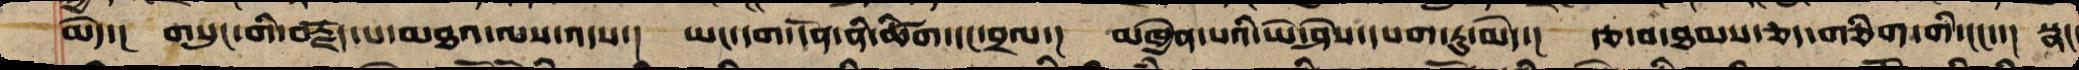མེད་། གསུང་གི་བརྗོད་པ་མཐའ་ལས་འདས་། ཡང་དག་དོན་ནི་ཚིག་དང་བྲལ་། མཁྱེན་པའི་ཡེ་ཤེས་དཔག་ཏུ་མེད་། རྩ་བ་ཐམས་ཅད་གཅིག་གི་ངང་་། སྣང
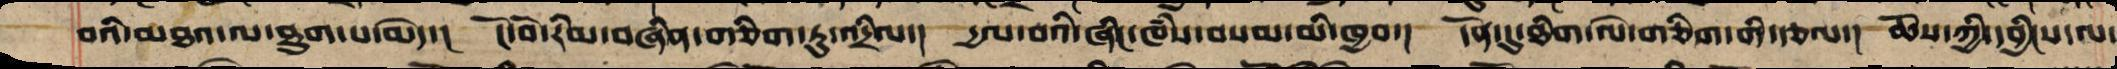བའི་མཐའ་ལ་ཐུག་པ་མེད་། ངོ་བོ་རིམ་བཞིན་གཅིག་ཏུ་འདྲིལ་། རྒྱལ་བའི་ཞིང་ཁཾས་བསམ་མི་ཁྱབ་། དོན་དུ་ཐིག་ལེ་གཅིག་གི་རྩལ་། ཆོས་ཀྱི་དབྱིངས་ལ་
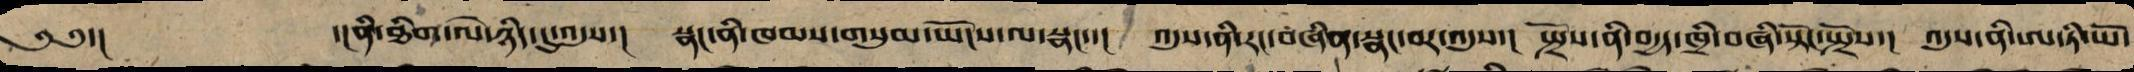༄༅་། ་།ནི་ཐིག་ལེ་ཉིད་དུ་འདུས་། སྣང་ནི་ཁམས་གསུམ་ཡོངས་ལ་སྣང་་། འདུས་ནི་རང་བཞིན་སྣང་བར་འདུས་། སྤྲོས་ནི་བདྱད་ཁྲི་བཞི་སྟོང་སྤྲོས་། འདུས་ནི་ཨ་ཏི་ཡོ་
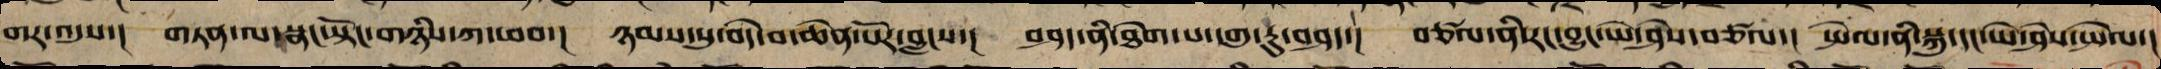གར་འདུས་། གཏན་ལ་སྣང་སྟོང་གཉིས་ཀ་ཕབ་། ཉམས་སུ་བདེ་བ་ཆེན་པོར་བླངས་།། བཤད་ནི་ཐེག་པ་དགུ་རུ་བཤད་། བཙལ་ནི་རང་བྱུང་ཡེ་ཤེས་བཙལ་། སྤེལ་ནི་སྐུ་དང་ཡེ་ཤེས་སྤེལ་།
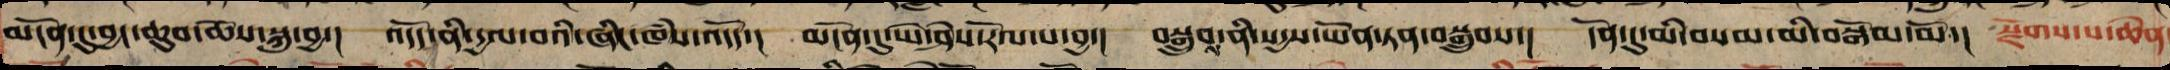མངོན་དུ་བྱང་ཆུབ་ཆོས་སྐུར་བྱ་། འདོད་ནི་དྱལ་བའི་ཞིང་ཁཾས་འདོད་། མངོན་དུ་ཡེ་ཤེས་རོལ་པ་བྱ་། བསྒྲུབ་ནི་སདྱས་ཡོན་ཏན་བསྒྲུབས་། དོན་དུ་མི་བསམ་མི་བསྒོམ་མོ་། སྫོགས་པ་ཆེན
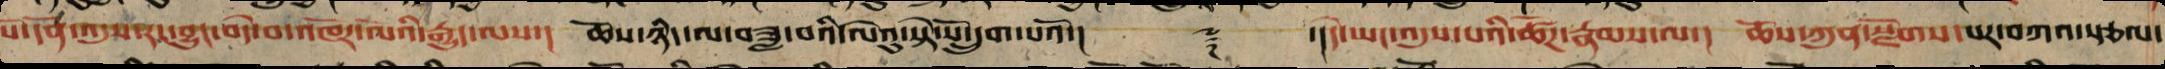པོ་དོན་འདུས་རང་བྱུང་བདེ་བའི་འཁོར་ལོའི་རྒྱུད་ལས་། ཆོས་ཉིད་ལ་བཟླ་བའི་ལེའུ་སྟེ་སོ་དྲུག་པའོ་།། ༈ ་།།དེ་ཡང་འདུས་པའི་ཚོཌ་རྣམས་ལ་། ཆོས་ཀུན་སྫོགས་པར་བཀའ་སྩལ་
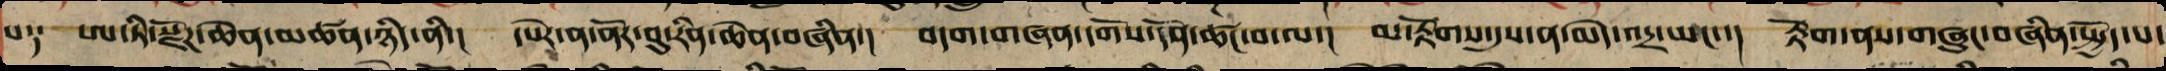པ༑ ཨ་ཏི་སྫོཌ་ཆེན་མཚན་ཉིད་ནི། དཔེར་ན་ནོར་བུ་རིན་ཆེན་བཞིན་། བདག་གཞན་དགོས་འདོད་ཚང་བ་ལ་། མ་རྟོགས་དུས་ན་མེད་འདྲ་ཡང་་། རྟོག་ནས་གཞུང་བཞིན་སྤྱོད་པ་
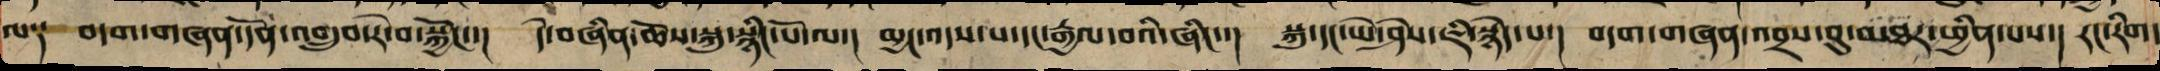ལས༑ བདག་གཞན་དོན་འགྲུབ་རེ་བ་སྐྱོང་་། དེ་བཞིན་ཆོས་སྐུ་སྙིང་པོ་ལ་། མྱང་འདས་ས་དང་རྒྱལ་བའི་ཞིང་་། སྐུ་དང་ཡེ་ཤེས་ཇི་སྙེད་པ་། བདག་གཞན་འབྲས་བུ་མཐར་ཕྱིན་པས་། རང་རིག་
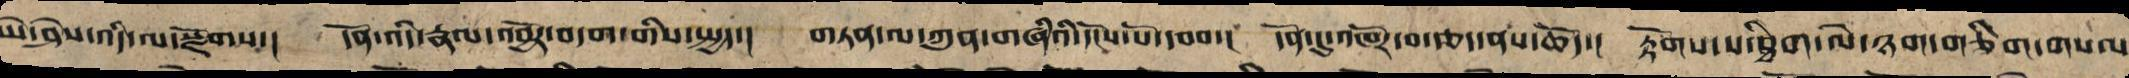ཡེ་ཤེས་འདི་ལ་སྫོགས་། དོན་འདི་རྣལ་འབྱོར་བདག་གིས་སྤྱད་། གཏན་ལ་ཀུན་གཞིའི་དངོས་པོ་དབབ་། དོན་དུ་འཁོར་བ་རྩད་ནས་ཆོད་། རྟོགས་པ་ཐིག་ལེ་ཉག་གཅིག་གསལ
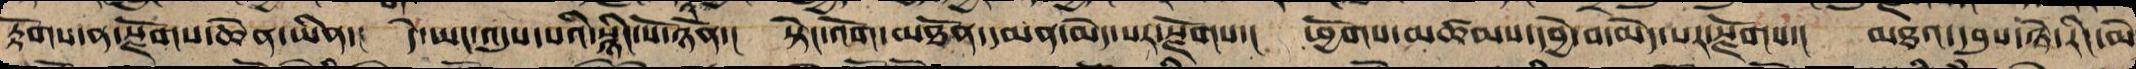རྟོགས་ན་སྫོགས་ཆེན་ཡིན་། དེ་ཡང་འདུས་པའི་སྙིང་པོ་ཉོན་། སྟེང་འོག་མཐོ་དམན་མེད་པར་སྫོགས་། ཕྱོགས་མཚམས་དབྱེ་བ་མེད་པར་སྫོ་གས། མཐའ་དབུས་ཉེ་རིང་མེ
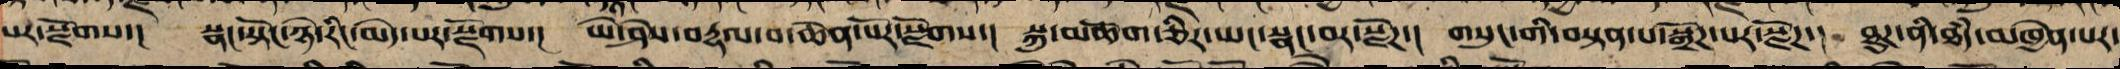པར་སྫོགས་། སྣང་སྟོང་ཉེ་རིང་མེད་པར་སྫོགས་། ཡེ་ཤེས་བརྡལ་བ་ཆེན་པོར་སྫོགས་། སྐུ་མཆོག་ཅིར་ཡང་སྣང་བར་སྫོཌ་། གསུང་ནི་བསྟན་པ་སྒྲོཌ་པར་སྫོཌ་། ཐུཌ་ནི་ཐཾད་མཁྱེན་པར་
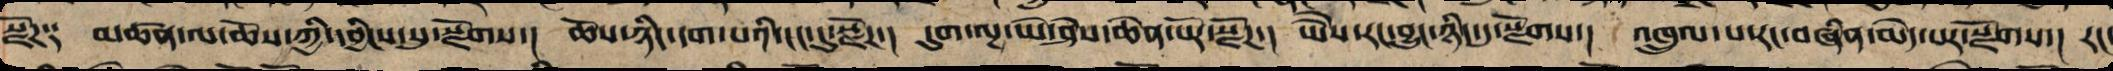སྫོཌ༑ མཚན་མ་ཆོས་ཀྱི་དབྱིངས་སུ་སྫོགས་། ཆོས་ཉིད་དག་པའི་ངང་དུ་སྫོགས་། དུག་ལྔ་ཡེ་ཤེས་ཆེན་པོར་སྫོགས་། ཡཻས་རང་བྱུང་ཉིད་དུ་སྫོགས་། འཁྲུལ་པ་རང་བཞིན་མེད་པར་སྫོགས་། རང་
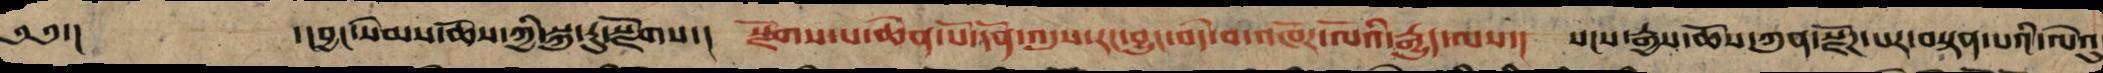༄༅་། ་།བྱང་སེམས་ཆོས་ཀྱི་སྐུ་རུ་སྫོགས་། སྫོགས་པ་ཆེན་པོ་དོན་འདུས་རང་བྱུང་བདེ་བའི་འཁོར་ལོའི་རྒྱུད་ལས་། སངས་རྒྱས་ཆོས་ཀུན་སྫོཌ་པར་བསྟན་པའི་ལེའུ
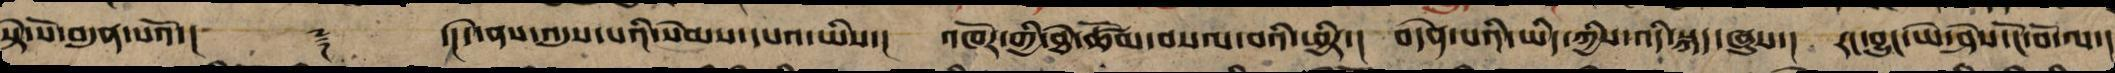སྟེ་སོ་བདུན་པའོ་།། ༈ ་།།དེ་ནས་འདུས་པའི་སེམས་དཔའ་ཡིས་། འཁོར་གྱི་ཐེ་ཚོམ་བསལ་བའི་ཕྱིར་། བདེན་པའི་ཡིད་ཀྱིས་འདི་སྐད་ཞུས་། རང་བྱུང་ཡེ་ཤེས་ངོ་བོ་ལ་།
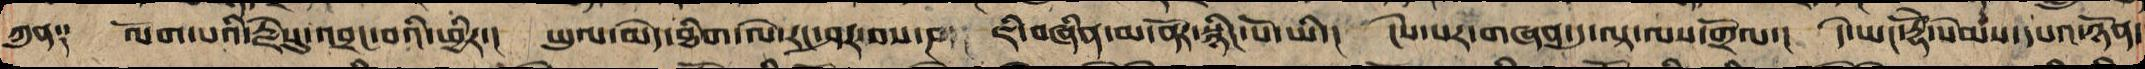ཀུན༑ ལོག་པའི་རྗེསུ་འབྲང་བའི་ཕྱིར་། ཡུལ་མེད་ཐིག་ལེ་རང་ཤར་བས་། ཇི་བཞིན་མ་ནོར་སྙིང་པོ་ཡི་། ངེས་པར་གཞན་དུ་ལྟ་ལས་གྲོལ་། དེ་ཡང་རྡོེ་སེམས་དཔའ་ཉོན་
